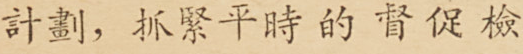計劃，抓緊平時的督促檢
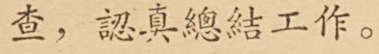查，認真總結工作。
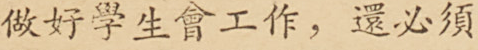做好學生會工作，還必須
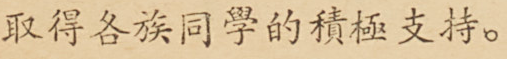取得各族同學的積極支持。
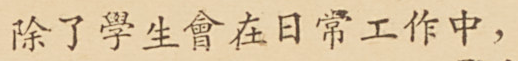除了學生會在日常工作中，
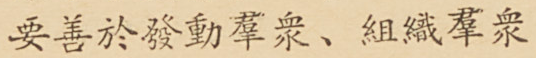要善於發動羣衆、組織羣衆
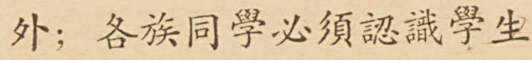外；各族同學必須認識學生
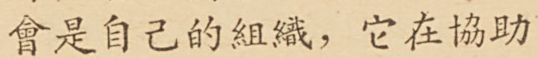會是自己的組織，它在協助
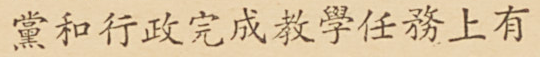黨和行政完成教學任務上有
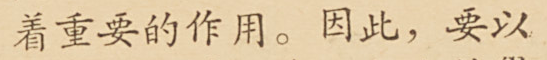着重要的作用。因此，要以
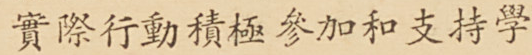實際行動積極參加和支持學
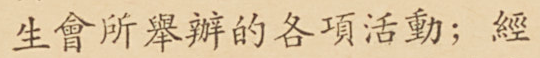生會所舉辦的各項活動；經
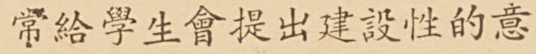常給學生會提出建設性的意
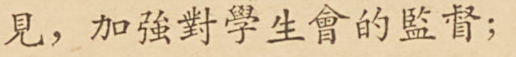見，加強對學生會的監督；
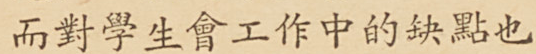而對學生會工作中的缺點也
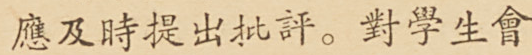應及時提出批評。對學生會
